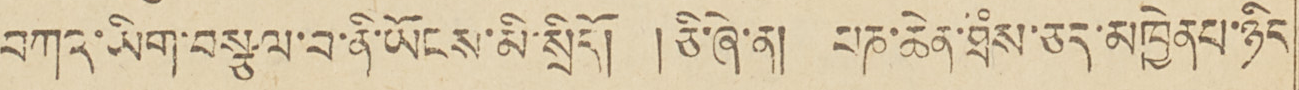བཀའ་ཡིག་བསྩལ་བ་ནི་ཡོངས་མི་སྲིདོ། །ཅེ་ཞེ་ན། པཎ་ཆེན་ཐཾས་ཅད་མཁྱེན པ་ཉིད
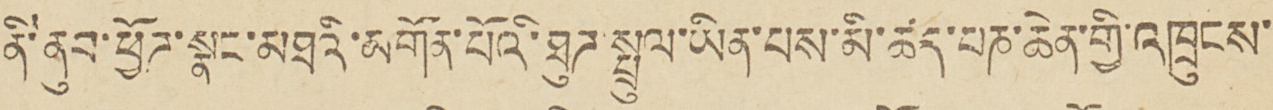ནི་ནུབ་ཕྱོཌ་སྣང་མཐའི་མགོན་པོའི་ཐུཌ་སྤྲུལ་ཡིན་པས་མི་ཚད་པཎ་ཆེན་གྱི་འཁྲུངས་
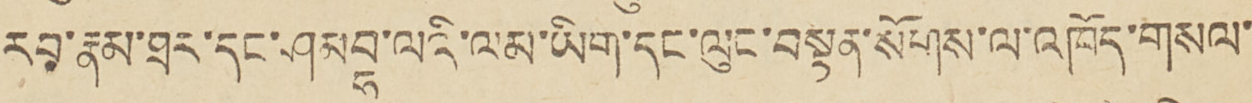རབ་རྣམ་ཐར་དང་ཤམ་བྷ་ལའི་ལམ་ཡིག་དང་ལུང་བསྟན་སོགས་ལ་འཁོད་གསལ་
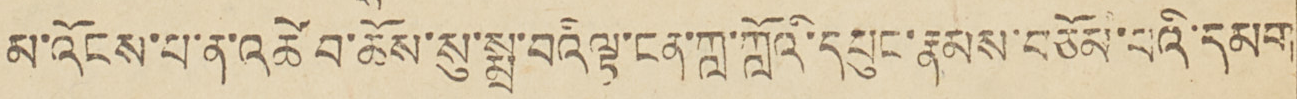མ་འོངས་པ་ན་འཚེ བ་ཆོས་སུ་སྨྲ་བའི ལྟ་ངན་ཀླ་ཀླའོ་དཔུང་རྣམས་བཅོམ་པའི་དཔག
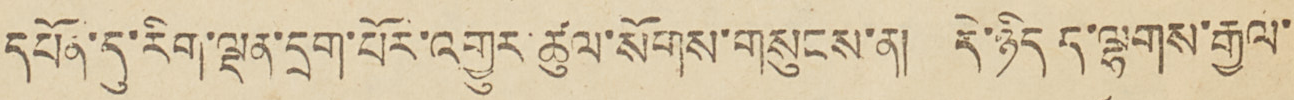དཔོན་དུ་རིག་ལྡན་དྲག་པོར་འགྱུར་ཚུལ་སོགས་གསུངས་ན། དེ་ཉིད་ད་ལྷགས་རྒྱལ་
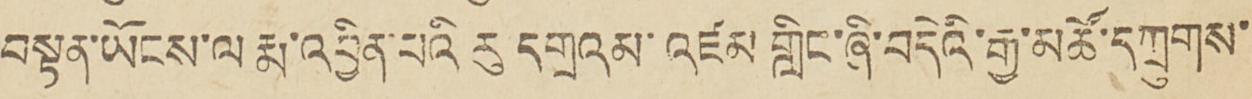བསྟན་ཡོངས་ལ རྨ་འབྱིན་པའི རུ དགྲ འམ་འཛམ གླིང་ཞེ་བདེའི་རྒྱ་མཚོ་དཀྲུགས་
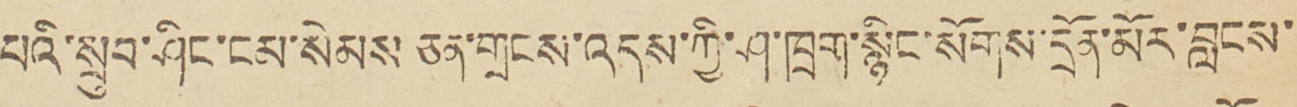པའི་སྲུབ་ཤིང་ངམ་སེམས ཅན་གྲངས་འདས་ཀྱི་ཤ་ཁྲག་སྙིང་སོགས་དྲོན་མོར་བླངས་
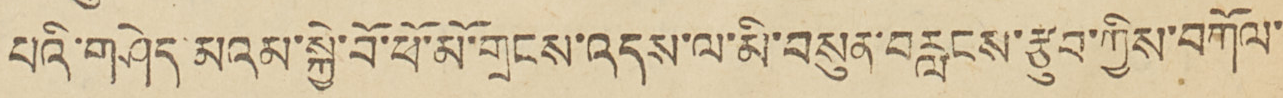པའི་གཤེད་མའམ་སྐྱེ་བོ་ཕོ་མོ་གྲངས་འདས་ལ་མི་བསུན་བརླངས་རྩུབ་ཀྱིས་བཀོལ་
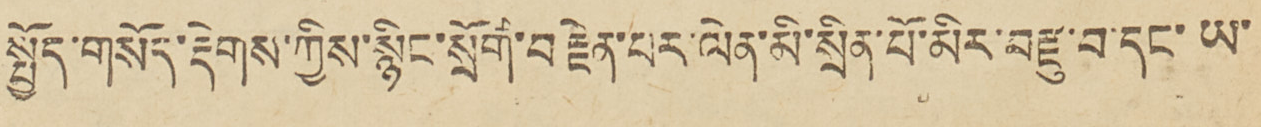སྤྱོད་གསོད་རྡེགས་ཀྱིས་སྙིང་སྲོག་བརྗེད་པར་ལེན་མི་སྲིན་པོ་མིར་བརྫུ་བ་དང་ཡ་
